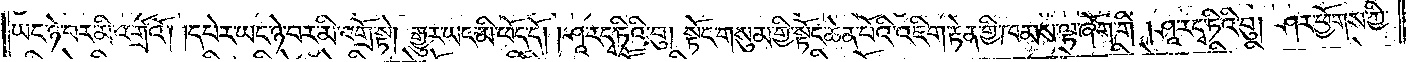ཡང་ཉེ་བར་མི་འགྲོའོ། །དཔེར་ཡང་ཉེ་བར་མི་འགྲོ་སྟེ། རྒྱུར་ཡང་མི་ཕོད་དོ། །ཤཱ་ར་དྭ་ཏིའི་བུ། སྟོང་གསུམ་གྱི་སྟོང་ཆེན་པོའི་འཇིག་རྟེན་གྱི་ཁམས་ལྟ་ཞོག་གི །ཤཱ་ར་དྭ་ཏིའི་བུ། ཤར་ཕྱོགས་ཀྱི་
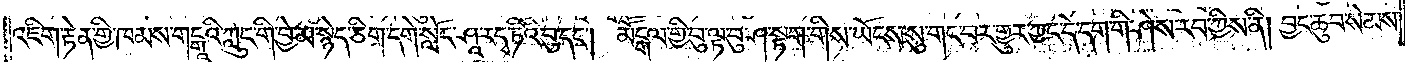འཇིག་རྟེན་གྱི་ཁམས་གངྒཱའི་ཀླུང་གི་བྱེ་མ་སྙེད་ཅིག་དགེ་སློང་ཤཱ་ར་དྭ་ཏིའི་བུ་དང༌། མཽདྒལ་གྱི་བུ་ལྟ་བུ་ཤ་སྟག་གིས་ཡོངས་སུ་གང་བར་གྱུར་ཀྱང་དེ་དག་གི་ཤེས་རབ་ཀྱིས་ནི། བྱང་ཆུབ་སེམས་
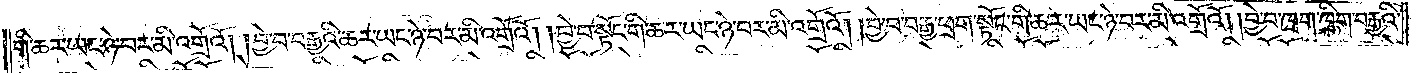གི་ཆར་ཡང་ཉེ་བར་མི་འགྲོའོ། །བྱེ་བ་བརྒྱའི་ཆར་ཡང་ཉེ་བར་མི་འགྲོའོ། །བྱེ་བ་སྟོང་གི་ཆར་ཡང་ཉེ་བར་མི་འགྲོའོ། །བྱེ་བ་བརྒྱ་ཕྲག་སྟོང་གི་ཆར་ཡང་ཉེ་བར་མི་འགྲོའོ། །བྱེ་བ་ཁྲག་ཁྲིག་བརྒྱའི་
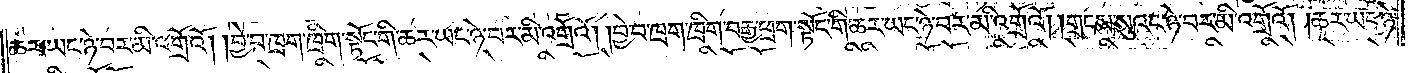ཆར་ཡང་ཉེ་བར་མི་འགྲོའོ། །བྱེ་བ་ཁྲག་ཁྲིག་སྟོང་གི་ཆར་ཡང་ཉེ་བར་མི་འགྲོའོ། །བྱེ་བ་ཁྲག་ཁྲིག་བརྒྱ་ཕྲག་སྟོང་གི་ཆར་ཡང་ཉེ་བར་མི་འགྲོའོ། །གྲངས་སུའང་ཉེ་བར་མི་འགྲོའོ། །ཆར་ཡང་ཉེ་
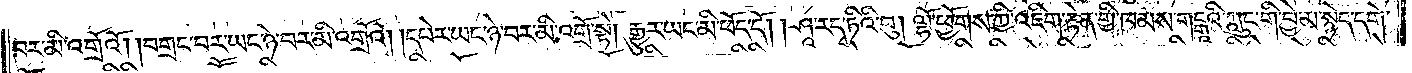བར་མི་འགྲོའོ། །བགྲང་བར་ཡང་ཉེ་བར་མི་འགྲོའོ། །དཔེར་ཡང་ཉེ་བར་མི་འགྲོ་སྟེ། རྒྱུར་ཡང་མི་ཕོད་དོ། །ཤཱ་ར་དྭ་ཏིའི་བུ། ལྷོ་ཕྱོགས་ཀྱི་འཇིག་རྟེན་གྱི་ཁམས་གངྒཱའི་ཀླུང་གི་བྱེ་མ་སྙེད་དགེ་
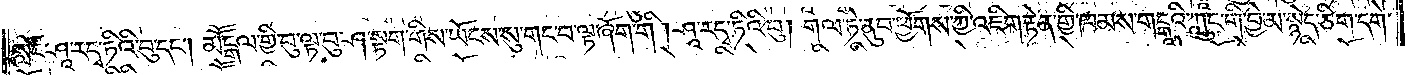སློང་ཤཱ་ར་དྭ་ཏིའི་བུ་དང༌། མཽདྒལ་གྱི་བུ་ལྟ་བུ་ཤ་སྟག་གིས་ཡོངས་སུ་གང་བ་ལྟ་ཞོག་གི། ཤཱ་ར་དྭ་ཏིའི་བུ། གལ་ཏེ་ནུབ་ཕྱོགས་ཀྱི་འཇིག་རྟེན་གྱི་ཁམས་གངྒཱའི་ཀླུང་གི་བྱེ་མ་སྙེད་ཅིག་དགེ་
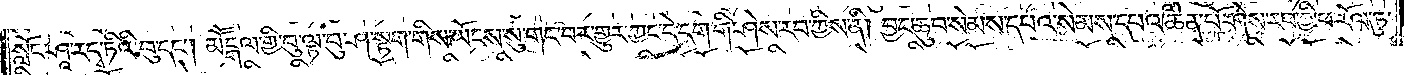སློང་ཤཱ་ར་དྭ་ཏིའི་བུ་དང༌། མཽདྒལ་གྱི་བུ་ལྟ་བུ་ཤ་སྟག་གིས་ཡོངས་སུ་གང་བར་གྱུར་ཀྱང་དེ་དག་གི་ཤེས་རབ་ཀྱིས་ནི། བྱང་ཆུབ་སེམས་དཔའ་སེམས་དཔའ་ཆེན་པོ་ཤེས་རབ་ཀྱི་ཕ་རོལ་ཏུ་
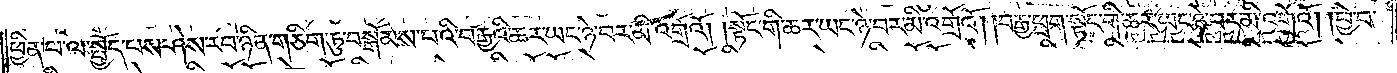ཕྱིན་པ་ལ་སྤྱོད་པས་ཤེས་རབ་ཉིན་གཅིག་ཏུ་བསྒོམས་པའི་བརྒྱའི་ཆར་ཡང་ཉེ་བར་མི་འགྲོའོ། །སྟོང་གི་ཆར་ཡང་ཉེ་བར་མི་འགྲོའོ། །བརྒྱ་ཕྲག་སྟོང་གི་ཆར་ཡང་ཉེ་བར་མི་འགྲོའོ། །བྱེ་བ་
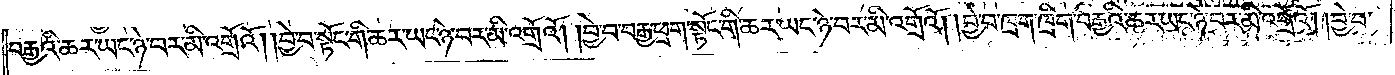བརྒྱའི་ཆར་ཡང་ཉེ་བར་མི་འགྲོའོ། །བྱེ་བ་སྟོང་གི་ཆར་ཡང་ཉེ་བར་མི་འགྲོའོ། །བྱེ་བ་བརྒྱ་ཕྲག་སྟོང་གི་ཆར་ཡང་ཉེ་བར་མི་འགྲོའོ། །བྱེ་བ་ཁྲག་ཁྲིག་བརྒྱའི་ཆར་ཡང་ཉེ་བར་མི་འགྲོའོ། །བྱེ་བ་
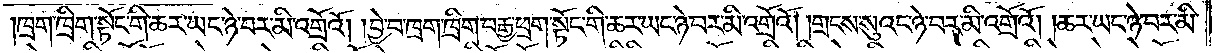ཁྲག་ཁྲིག་སྟོང་གི་ཆར་ཡང་ཉེ་བར་མི་འགྲོའོ། །བྱེ་བ་ཁྲག་ཁྲིག་བརྒྱ་ཕྲག་སྟོང་གི་ཆར་ཡང་ཉེ་བར་མི་འགྲོའོ། །གྲངས་སུའང་ཉེ་བར་མི་འགྲོའོ། །ཆར་ཡང་ཉེ་བར་མི་
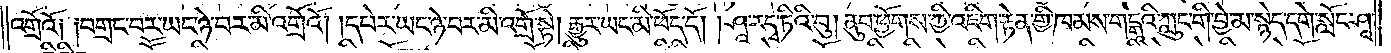འགྲོའོ༑ ༑བགྲང་བར་ཡང་ཉེ་བར་མི་འགྲོའོ། །དཔེར་ཡང་ཉེ་བར་མི་འགྲོ་སྟེ། རྒྱུར་ཡང་མི་ཕོད་དོ། །ཤཱ་ར་དྭ་ཏིའི་བུ། ནུབ་ཕྱོགས་ཀྱི་འཇིག་རྟེན་གྱི་ཁམས་གངྒཱའི་ཀླུང་གི་བྱེ་མ་སྙེད་དགེ་སློང་ཤཱ་
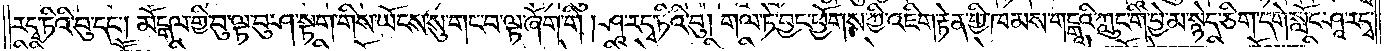རདྭ་ཏིའི་བུ་དང༌། མོདྒལ་གྱི་བུ་ལྟ་བུ་ཤ་སྟག་གིས་ཡོངས་སུ་གང་བ་ལྟ་ཞོག་གི། ཤཱ་རདྭ་ཏིའི་བུ། གལ་ཏེ་བྱང་ཕྱོགས་ཀྱི་འཇིག་རྟེན་གྱི་ཁམས་གངྒཱའི་ཀླུང་གི་བྱེ་མ་སྙེད་ཅིག་དགེ་སློང་ཤཱ་རདྭ་
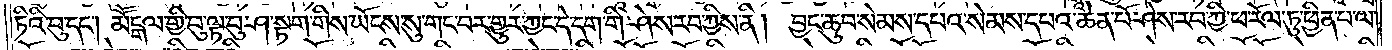ཏིའི་བུ་དང༌། མཽདྒལ་གྱི་བུ་ལྟ་བུ་ཤ་སྟག་གིས་ཡོངས་སུ་གང་བར་གྱུར་ཀྱང་དེ་དག་གི་ཤེས་རབ་ཀྱིས་ནི། བྱང་ཆུབ་སེམས་དཔའ་སེམས་དཔའ་ཆེན་པོ་ཤེས་རབ་ཀྱི་ཕ་རོལ་ཏུ་ཕྱིན་པ་ལ་
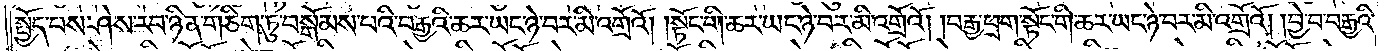སྤྱོད་པས་ཤེས་རབ་ཉིན་གཅིག་ཏུ་བསྒོམས་པའི་བརྒྱའི་ཆར་ཡང་ཉེ་བར་མི་འགྲོའོ། །སྟོང་གི་ཆར་ཡང་ཉེ་བར་མི་འགྲོའོ། །བརྒྱ་ཕྲག་སྟོང་གི་ཆར་ཡང་ཉེ་བར་མི་འགྲོའོ། །བྱེ་བ་བརྒྱའི་
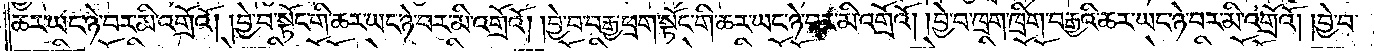ཆར་ཡང་ཉེ་བར་མི་འགྲོའོ། །བྱེ་བ་སྟོང་གི་ཆར་ཡང་ཉེ་བར་མི་འགྲོའོ། །བྱེ་བ་བརྒྱ་ཕྲག་སྟོང་གི་ཆར་ཡང་ཉེ་བར་མི་འགྲོའོ། །བྱེ་བ་ཁྲག་ཁྲིག་བརྒྱའི་ཆར་ཡང་ཉེ་བར་མི་འགྲོའོ། །བྱེ་བ་
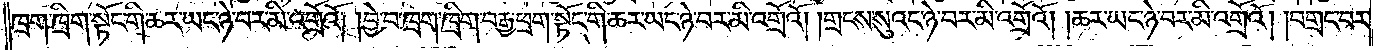ཁྲག་ཁྲིག་སྟོང་གི་ཆར་ཡང་ཉེ་བར་མི་འགྲོའོ། །བྱེ་བ་ཁྲག་ཁྲིག་བརྒྱ་ཕྲག་སྟོང་གི་ཆར་ཡང་ཉེ་བར་མི་འགྲོའོ། །གྲངས་སུའང་ཉེ་བར་མི་འགྲོའོ། །ཆར་ཡང་ཉེ་བར་མི་འགྲོའོ། །བགྲང་བར་
